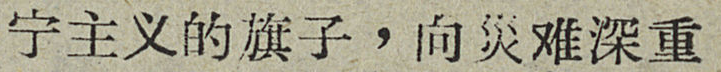宁主义的旗子，向災难深重
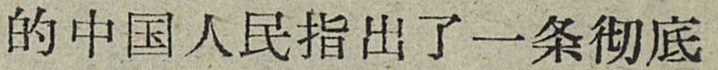的中国人民指出了一条彻底
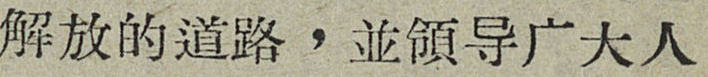解放党道路，並領导广大人
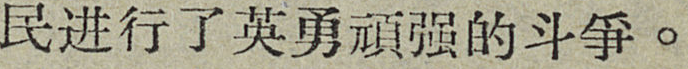民进行了英勇頑强的斗爭。
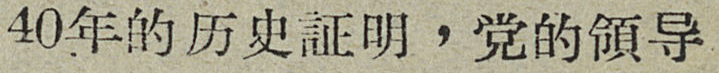40年的历史証明，党的領导
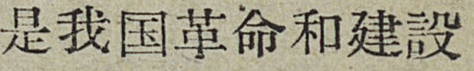是我国革命和建設
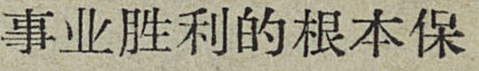事业胜利的根本保
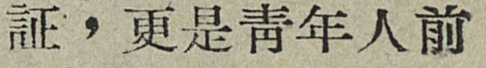証，更是靑年人前
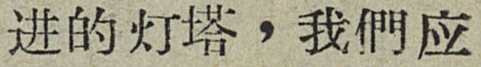进的灯塔，我們应
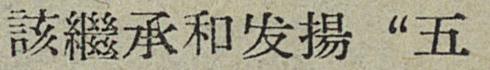該繼承和发揚“五
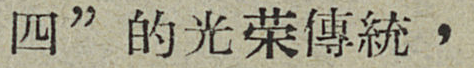四”的光荣傳統，
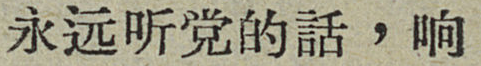永远听党的話，响
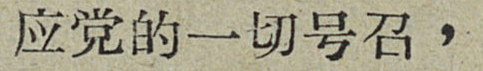应党的一切号召，
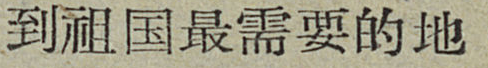到祖国最需要的地
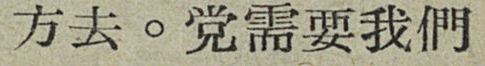方去。党需要我們
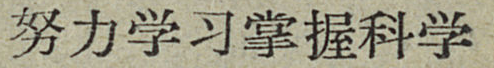努力学习掌握科学
